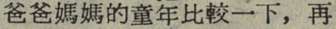爸爸媽媽的童年比較一下，再
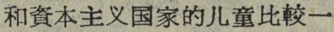和資本主义国家的儿童比較一
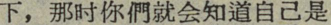下，那时你們就会知道自己是
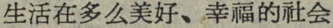生活在多么美好、幸福的社会
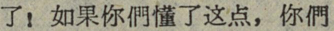了！如果你們懂了这点，你們
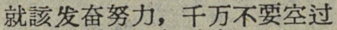就該发奋努力，千万不要空过
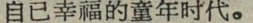自己幸福的童时代。
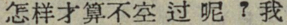怎样才算不空过呢？我
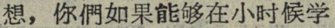想，你們如果能够在小时候学
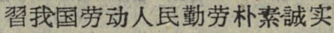習我国劳动人民勤劳朴素誠实
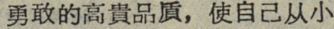勇敢的高貴品貭質，使自己从小
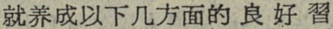就养成以下几方面的良好習
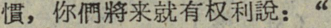慣，你們將来就有权利說：“
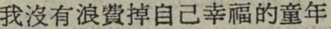我沒有浪費掉自己幸福的童年
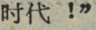时代！”
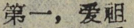第一，爱祖
